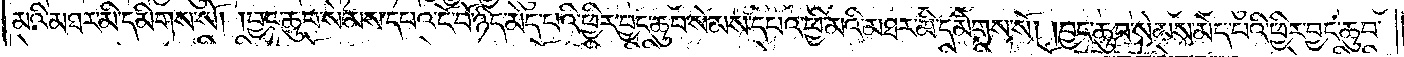མའི་མཐར་མི་དམིགས་སོ། །བྱང་ཆུབ་སེམས་དཔའ་ངོ་བོ་ཉིད་མེད་པའི་ཕྱིར་བྱང་ཆུབ་སེམས་དཔའ་ཕྱི་མའི་མཐར་མི་དམིགས་སོ། །བྱང་ཆུབ་སེམས་དཔའ་མེད་པའི་ཕྱིར་བྱང་ཆུབ་
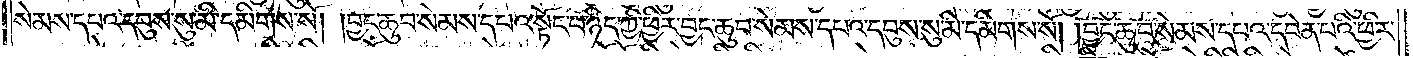སེམས་དཔའ་དབུས་སུ་མི་དམིགས་སོ། །བྱང་ཆུབ་སེམས་དཔའ་སྟོང་པ་ཉིད་ཀྱི་ཕྱིར་བྱང་ཆུབ་སེམས་དཔའ་དབུས་སུ་མི་དམིགས་སོ། །བྱང་ཆུབ་སེམས་དཔའ་དབེན་པའི་ཕྱིར་
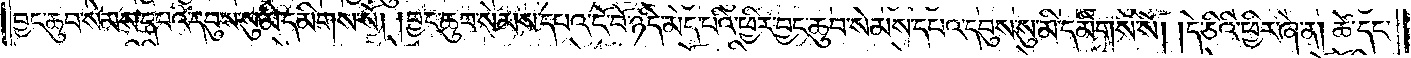བྱང་ཆུབ་སེམས་དཔའ་དབུས་སུ་མི་དམིགས་སོ། །བྱང་ཆུབ་སེམས་དཔའ་ངོ་བོ་ཉིད་མེད་པའི་ཕྱིར་བྱང་ཆུབ་སེམས་དཔའ་དབུས་སུ་མི་དམིགས་སོ། །དེ་ཅིའི་ཕྱིར་ཞེ་ན། ཚེ་དང་
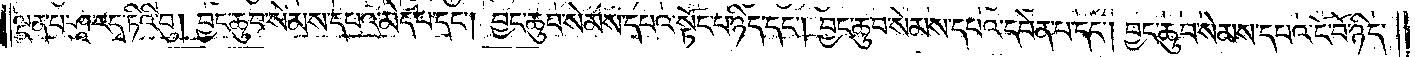ལྡན་པ་ཤཱ་རདྭ་ཏིའི་བུ། བྱང་ཆུབ་སེམས་དཔའ་མེད་པ་དང༌། བྱང་ཆུབ་སེམས་དཔའ་སྟོང་པ་ཉིད་དང༌། བྱང་ཆུབ་སེམས་དཔའ་དབེན་པ་དང༌། བྱང་ཆུབ་སེམས་དཔའ་ངོ་བོ་ཉིད་
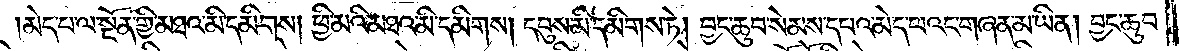མེད་པ་ལ་སྔོན་གྱི་མཐའ་མི་དམིགས། ཕྱི་མའི་མཐའ་མི་དམིགས། དབུས་མི་དམིགས་ཏེ། བྱང་ཆུབ་སེམས་དཔའ་མེད་པའང་གཞན་མ་ཡིན། བྱང་ཆུབ་
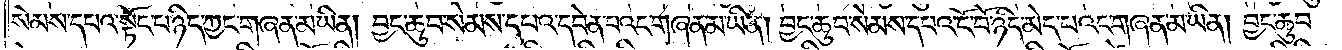སེམས་དཔའ་སྟོང་པ་ཉིད་ཀྱང་གཞན་མ་ཡིན། བྱང་ཆུབ་སེམས་དཔའ་དབེན་པའང་གཞན་མ་ཡིན། བྱང་ཆུབ་སེམས་དཔའ་ངོ་བོ་ཉིད་མེད་པའང་གཞན་མ་ཡིན། བྱང་ཆུབ་
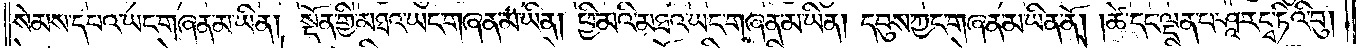སེམས་དཔའ་ཡང་གཞན་མ་ཡིན། སྔོན་གྱི་མཐའ་ཡང་གཞན་མ་ཡིན། ཕྱི་མའི་མཐའ་ཡང་གཞན་མ་ཡིན། དབུས་ཀྱང་གཞན་མ་ཡིན་ནོ། །ཚེ་དང་ལྡན་པ་ཤཱ་རདྭ་ཏིའི་བུ།
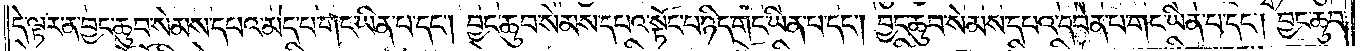དེ་ལྟར་ན་བྱང་ཆུབ་སེམས་དཔའ་མེད་པ་གང་ཡིན་པ་དང༌། བྱང་ཆུབ་སེམས་དཔའ་སྟོང་པ་ཉིད་གང་ཡིན་པ་དང༌། བྱང་ཆུབ་སེམས་དཔའ་དབེན་པ་གང་ཡིན་པ་དང༌། བྱང་ཆུབ་
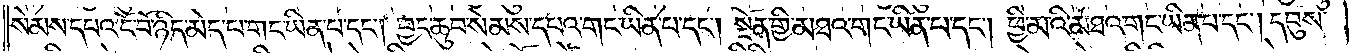སེམས་དཔའ་ངོ་བོ་ཉིད་མེད་པ་གང་ཡིན་པ་དང༌། བྱང་ཆུབ་སེམས་དཔའ་གང་ཡིན་པ་དང༌། སྔོན་གྱི་མཐའ་གང་ཡིན་པ་དང༌། ཕྱི་མའི་མཐའ་གང་ཡིན་པ་དང༌། དབུས་
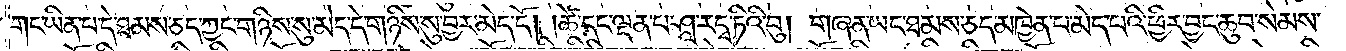གང་ཡིན་པ་དེ་ཐམས་ཅད་ཀྱང་གཉིས་སུ་མེད་དེ་གཉིས་སུ་བྱར་མེད་དོ། །ཚེ་དང་ལྡན་པ་ཤཱ་རདྭ་ཏིའི་བུ། གཞན་ཡང་ཐམས་ཅད་མཁྱེན་པ་མེད་པའི་ཕྱིར་བྱང་ཆུབ་སེམས་
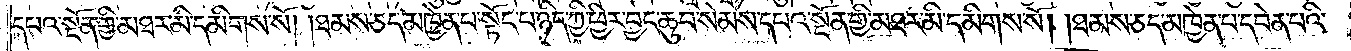དཔའ་སྔོན་གྱི་མཐར་མི་དམིགས་སོ། །ཐམས་ཅད་མཁྱེན་པ་སྟོང་པ་ཉིད་ཀྱི་ཕྱིར་བྱང་ཆུབ་སེམས་དཔའ་སྔོན་གྱི་མཐའ་མི་དམིགས་སོ། །ཐམས་ཅད་མཁྱེན་པ་དབེན་པའི་
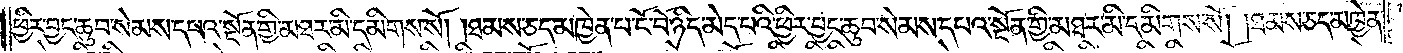ཕྱིར་བྱང་ཆུབ་སེམས་དཔའ་སྔོན་གྱི་མཐར་མི་དམིགས་སོ། །ཐམས་ཅད་མཁྱེན་པ་ངོ་བོ་ཉིད་མེད་པའི་ཕྱིར་བྱང་ཆུབ་སེམས་དཔའ་སྔོན་གྱི་མཐར་མི་དམིགས་སོ། །ཐམས་ཅད་མཁྱེན་
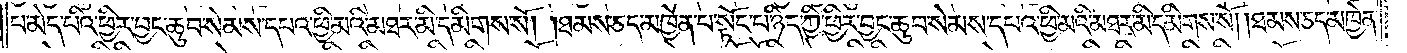པ་མེད་པའི་ཕྱིར་བྱང་ཆུབ་སེམས་དཔའ་ཕྱི་མའི་མཐར་མི་དམིགས་སོ། །ཐམས་ཅད་མཁྱེན་པ་སྟོང་པ་ཉིད་ཀྱི་ཕྱིར་བྱང་ཆུབ་སེམས་དཔའ་ཕྱི་མའི་མཐར་མི་དམིགས་སོ། །ཐམས་ཅད་མཁྱེན་
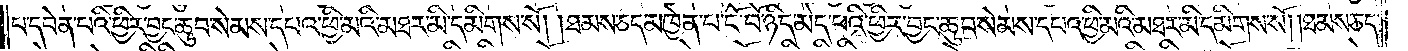པ་དབེན་པའི་ཕྱིར་བྱང་ཆུབ་སེམས་དཔའ་ཕྱི་མའི་མཐར་མི་དམིགས་སོ། ཐམས་ཅད་མཁྱེན་པ་ངོ་བོ་ཉིད་མེད་པའི་ཕྱིར་བྱང་ཆུབ་སེམས་དཔའ་ཕྱི་མའི་མཐར་མི་དམིགས་སོ། །ཐམས་ཅད་
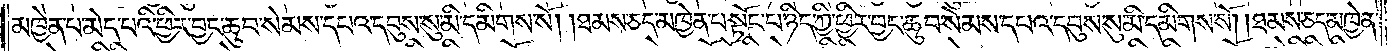མཁྱེན་པ་མེད་པའི་ཕྱིར་བྱང་ཆུབ་སེམས་དཔའ་དབུས་སུ་མི་དམིགས་སོ། །ཐམས་ཅད་མཁྱེན་པ་སྟོང་པ་ཉིད་ཀྱི་ཕྱིར་བྱང་ཆུབ་སེམས་དཔའ་དབུས་སུ་མི་དམིགས་སོ། །ཐམས་ཅད་མཁྱེན་
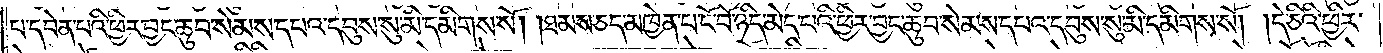པ་དབེན་པའི་ཕྱིར་བྱང་ཆུབ་སེམས། དཔའ་དབུས་སུ་མི་དམིགས་སོ། །ཐམས་ཅད་མཁྱེན་པ་ངོ་བོ་ཉིད་མེད་པའི་ཕྱིར་བྱང་ཆུབ་སེམས་དཔའ་དབུས་སུ་མི་དམིགས་སོ། །དེ་ཅིའི་ཕྱིར་
